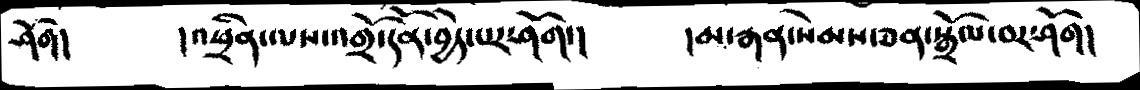ཤོག།        །འཕྲིན་ལས་འགྲོ་དོན་བྱེད་པར་ཤོག་།       །མ་རྒན་སེམས་ཅན་སྒྲོལ་བར་ཤོག།
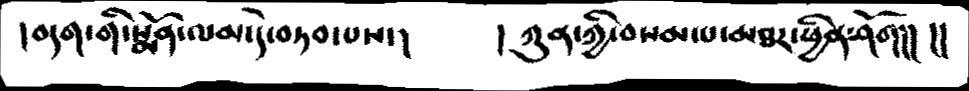།བདག་གི་སྨོན་ལམ་དེ་བཏབ་པས་།      ། ཀུན་གྱི་བསམ་པ་མཐར་ཕྱིན་ཤོག།།   །།
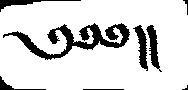༅༅༅།།
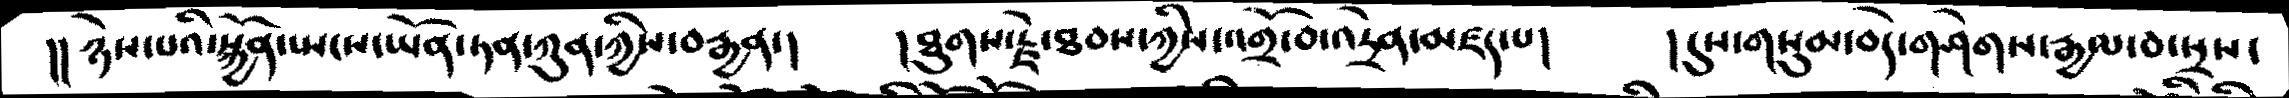།། ཉེས་པའི་སྐྱོན་སྤངས་ཡོན་ཏན་ཀུན་ཀྱིས་བརྒྱན་།    །ཐུགས་རྗེ་ཐབས་ཀྱིས་འགྲོ་བ་འདྲེན་མཛད་པ།      ། དུས་གསུམ་བདེ་གཤེགས་རྒྱལ་བ་སྲས་
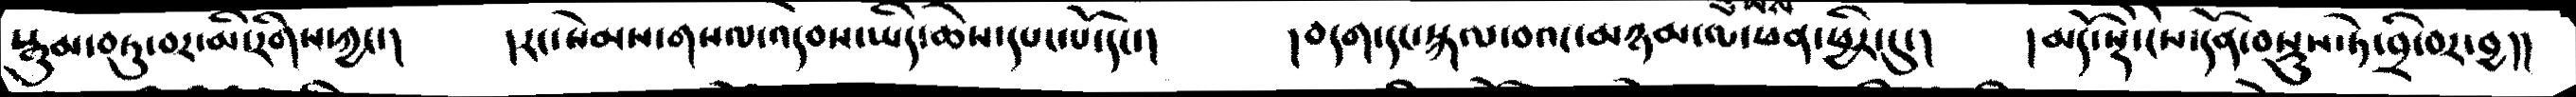སྒུམ་བཏུ་བར་མི་རིགས་ཀྱང་།   །རང་སེམས་གསལ་འདེབས་ཡིད་ཆེས་དཔང་པོ་དང་།   བདག་དང་སྐལ་བའང་མཉམ་ལ་ཕན་ཕྱིར་དུ་།   མདོ་སྡེ་ངེས་དོན་བསྡུས་ཏེ་བྲི་བར་བྱ།།
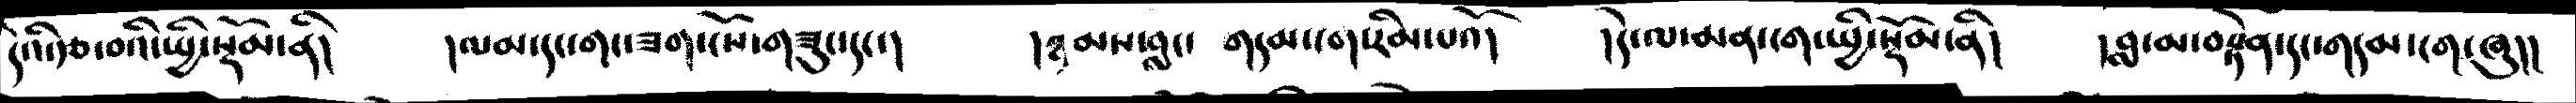དེའི་རྩ་བའི་སྤྱི་སྡོམ་ནི།     །ལམ་དང་གང་ཟག་ངོས་གཟུང་དང་།     །ཉམས་བླང་ གདམ་ངག་རིམ་པའོ།      །དེ་ལ་མན་ངག་སྤྱི་སྡོམ་ནི།    །བླ་མ་བརྟེན་དང་གདམ་ངག་ཞུ།།
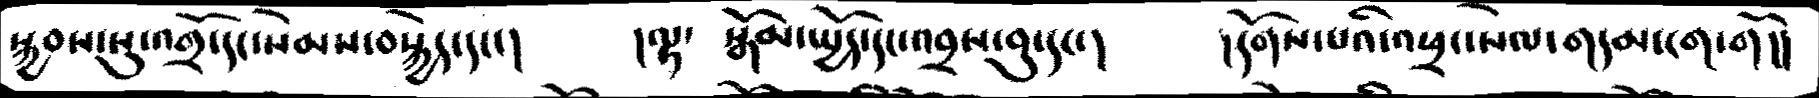སྐྱབས་སུ་འགྲོ་དང་སེམས་བསྐྱེད་དང་།       །ལྟ་  སྒོམ་སྤྱོད་དང་འབྲས་བུ་དང་།     །དགོས་པའི་འཕྲང་སེལ་གདམ་ངག་གོ།།
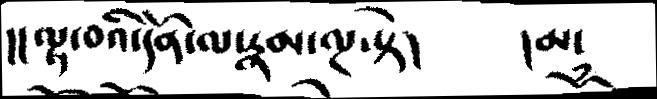།།   ལྟ་བའི་དོན་ལ་རྣམ་ལྔ་སྟེ།      དམ་
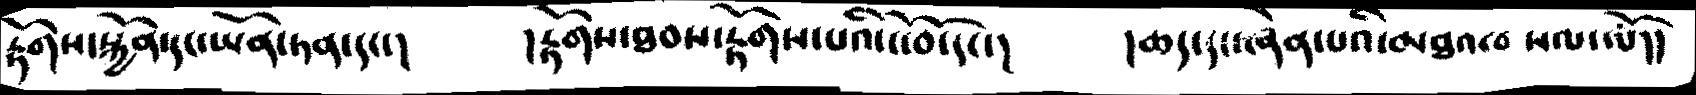རྟོགས་སྐྱོན་དང་ཡོན་ཏན་དང་།        །རྟོགས་ཐབས་རྟོགས་པའི་ངོ་བོ་དང་།         །ཆད་དང་ཞེན་པའི་མཐའ་བསལ་ལོ།།
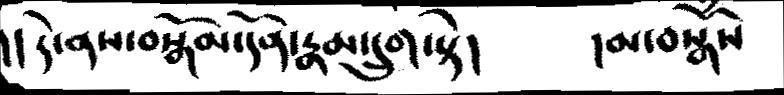།། དེ་ནས་བསྒོམ་དོན་རྣམ་དྲུག་སྟེ།       །མ་བསྒོཾས
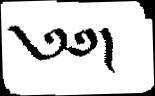༄༅།
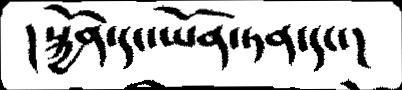།སྐྱོན་དང་ཡོན་ཏན་དང་།
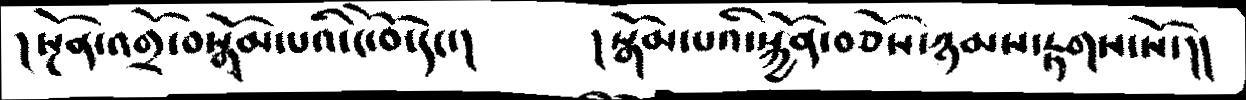།སྔོན་འགྲོ་བསྒོམ་པའི་ངོ་བོ་དང་།        །སྒོམ་པའི་སྐྱོན་བཅོས་ཉམས་རྟགས་སོ་།།
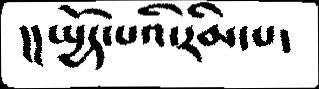།།སྤྱོད་པའི་རིམ་པ་
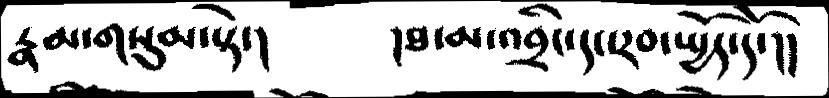རྣམ་གསུམ་སྟེ་།             །ཐ་མ་འབྲིང་དང་རབ་སྤྱོད་དོ་།
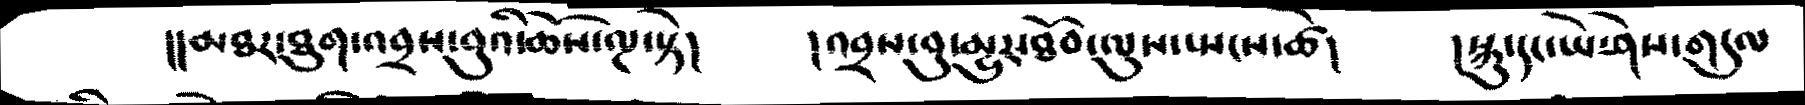།།མཐར་ཐུག་འབྲས་བུའི་ཆོས་ལྔ་སྟེ།        །འབྲས་བུ་མྱུར་ཐོབ་ལུས་སྤངས་ཚེ།        །སྐུ་དང་ཡེ་ཤེས་གདུལ
